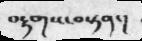བརྟགས་བསྟན་།
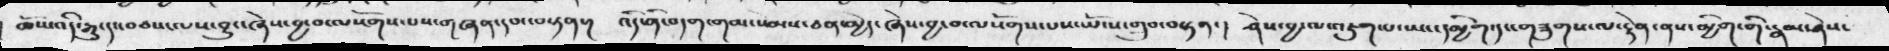ཆོས་འདི་རྒྱུ་དང་བཅས་ལས་བྱུང་ཞེས་བྱ་བ་ལསོགས་པས་གཞན་དབང་བསྟན་།  འདི་་ནི་བདག་གམ་སེམས་ཅན་མྱེད་ཞེས་བྱ་བ་ལསོགས་པས་ཡོངས་གྲུབ་བསྟན་།  ཤེས་བྱ་ལ་འཇུག་པ་ཡང་དམྱིག་དང་གཟུགས་ལ་རྟེན་ནས་མྱིག་གི་རྣམ་ཤེས་
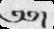༄༅།
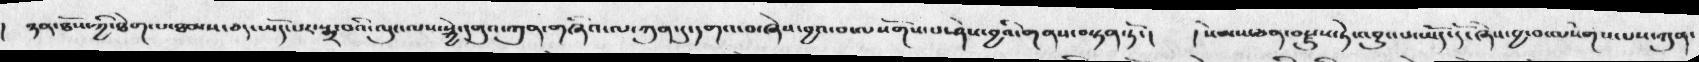།   ཉན་ཐོས་ཀྱི་ཐེག་པ་ཐམས་ཅད་ཡོད་པར་སྨྲ་བའི་ལུང་ལས་སྐྱེ་དགུའ་ཀུན་གཞིའི་ལ་ཀུན་དུ་དགའ་བ་ཞེས་བྱའ་བ་ལསོགས་པ་ཤེས་བའི་གནས་བསྟན་ཏོ་།  ། སེམས་ཅན་བརྫུས་ཏེ་འབྱུང་པ་ཡོད་དོ་ཞེས་བྱ་བ་ལསོགས་པས་ཀུན་
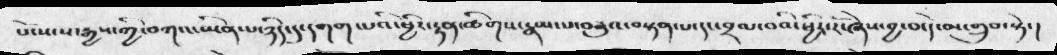པོ་སངས་རྒྱས་ཀི་བཀའ་ཡིན་པ་ཉིད་དུ་དགག་པའི་ཕྱིར་རྟན་ཚིགས་རྣམ་པ་བཅུའ་བསྟན་པ་དང་བྲལ་བའི་ཕྱིར་རོ་ཞེས་བྱ་བ་དེ་མ་གྲུབ་སྟེ་།
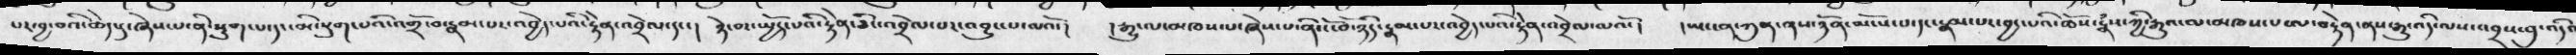པར་བྱ་བའི་ཆེད་དུ་ཞེས་པ་ནི་སྡུག་པ་དང་མི་སྡུག་པའི་འགྲོ་བ་རྣམ་པར་འབྱེད་པའི་རྟེན་འབྲེལ་དང་།  ཉེ་བར་སྤྱོད་པའི་རྟེན་ཅིང་འབྲེལ་པར་འབྱུང་པ་ལའོ་།  ། རྒྱུ་ལ་མཁས་པ་ཞེས་པ་ནི་ངོ་བོ་ཉིད་རྣམ་པར་འབྱེད་པའི་རྟེན་འབྲེལ་ལའོ་།   །ཡང་ན་ཀུན་ནས་ཉོན་མོངས་པ་དང་རྣམ་པར་བྱང་པའི་ཆོས་རྣཾས་ཀྱི་རྒྱུའ་ལ་མཁས་པ་ལ་བརྟེན་ནས་རྒྱུ་འདི་ལས་འབྲས་བུ་འདི་
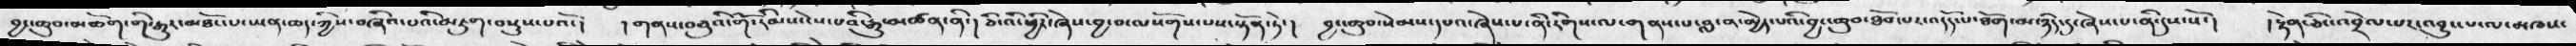བྱང་ཆུབ་མཆོག་གི་རྒྱུར་མཐོང་པ་ཡན་ཆད་ཀྱིས་བཞིའ་པའི་མཇུག་བསྡུས་པའོ་།  །གནས་བཅུའི་གོ་རིམས་ངེས་པའི་རྒྱུ་མཚན་ནི་།  ཅི་འི་ཕྱིར་ཞེས་བྱ་བ་ལསོགས་པས་སྟོན་ཏེ་།   བྱང་ཆུབ་སེམས་དཔའ་ཞེས་པ་ནི་རིགས་་ལ་གནས་པ་བླ་ན་མྱེད་པའི་བྱང་ཆུབ་ཐོབ་པར་འདོད་པ་ཐོག་མ་ཉིད་དུ་ཞེས་པ་ནི་དུས་སོ་།   །རྟེན་ཅིང་འབྲེལ་པར་འབྱུང་པ་ལ་མཁས་
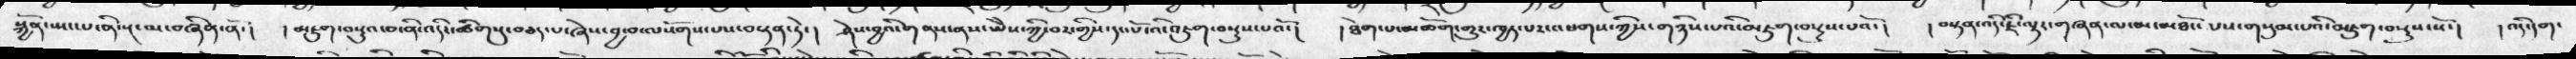སྐྱོན་སྤང་པ་སྔ་མ་བཞིན་ནོ་ །  །  མཇུག་བསྡུའ་བ་ནི་འདིར་ཚིགསུ་བཅད་པ་ཞེས་བྱ་བ་ལསོགས་པས་བསྟན་ཏེ་ །   ཤེས་བྱའི་གནས་ནས་ཡེེས་ཀྱི་བར་གྱིས་དང་པོའི་འཇུག་བསྡུས་པའོ་ །  ། ཐེག་པ་མཆོག་གྱུར་ཁྱད་པར་འཕགས་ཀྱིས་གཉིས་པའི་མཇུག་བསྡུསཔའོ་ །    །  བསྟན་འདི་ཇི་ལྟར་གཞན་ལ་མ་མཐོང་པས་གསུམ་པའི་མཇུག་བསྡུས་སོ་།     ། འདི་དག་
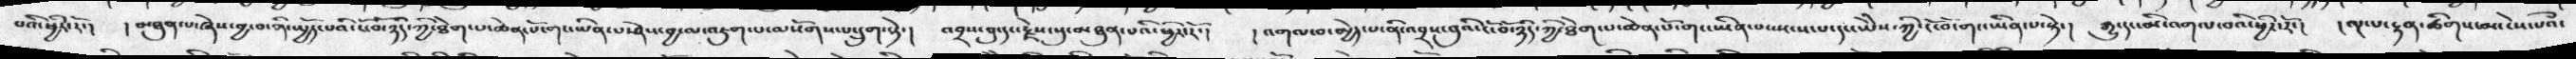པའི་ཕྱིར་རོ་ །  ། མཐུན་པ་ཞེས་བྱ་བ་ནི་ཡྱོད་པའི་ངོ་བོ་ཉིད་ཀྱི་ཐེག་པ་ཆེན་པོ་གང་ཡིན་པ་ཞེས་བྱ་ལ་འཇུག་པ་ལསོགས་པ་དྲུག་སྟེ་ །  འབྲས་བུ་དང་རྗེས་སུ་མཐུན་པའི་ཕྱིར་རོ་།  ། འགལ་བ་མྱེད་པ་ནི་འབྲས་བུའི་ངོ་བོ་ཉིད་ཀྱི་ཐེག་པ་ཆེན་པོ་གང་ཡིན་པ་སྤང་པ་དང་ཡེེས་ཀྱི་ངོ་བོ་གང་ཡིན་པ་སྟེ་ །   རྒྱུུ་དང་མི་འགལ་བའི་ཕྱིར་རོ་ །   ། ལྔ་པ་རྟན་ཚིགས་མ་ངེས་པའི་
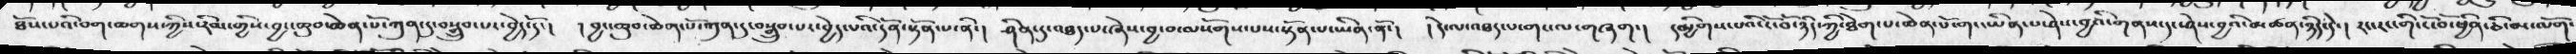ཐོས་པའི་བག་ཆགས་ཀྱིས་རིམ་གྱིས་བྱང་ཆུབ་ཆེན་པོ་ཀུན་དུ་བསྒྲུབ་པར་བྱེད་དོ་ །   ། བྱང་ཆུབ་ཆེན་པོ་ཀུན་དུ་བསྒྲུབ་པར་བྱེད་པའི་དོན་སྟོན་པ་ནི་།  ཤིན་དུ་འཐད་པ་ཞེས་བྱ་བ་ལ་སོགས་པས་སྟོན་པ་ཡིན་ནོ་།  ། དེ་ལ་འཐད་པ་གང་ལ་གཞག་།   དམྱིགས་པའི་ངོ་བོ་ཉིད་ཀྱི་ཐེག་པ་ཆེན་པོ་གང་ཡིན་པ་ཤེས་བྱའི་གནས་དང་ཤེས་བྱའི་མཚན་ཉིད་དེ་།  རང་རང་གི་ངོ་བོ་ཕྱིན་ཅི་མ་ལོག་
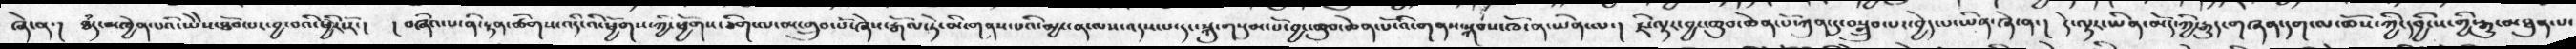ཞེ་ན་།   ཐཾད་མཁྱེན་པའི་ཡེེས་ཐོབ་པར་བྱ་བའི་ཕྱིར་རོ་།   །  བཞིའ་པ་ནི་རྟན་ཚིགས་འདི་འི་ཕྱོགས་ཀྱི་ཕྱོགས་ཅིག་ལ་མ་གྲུབ་པོ་ཞེས་རྒོལ་ཏེ་མི་གནས་པའི་མྱ་ངན་ལས་འདས་པ་དང་སྐུ་གསུམ་པོ་བྱང་ཆུབ་ཆེན་པོ་འི་གནས་སྐབས་ཁོ་ན་ཡིན་ལ་།  ཇི་ལྟར་བྱང་ཆུབ་ཆེན་པོ་ཀུན་དུ་བསྒྲུབ་པར་བྱེད་པ་ཡིན་ཞེ་ན་།    དེ་ལྟར་ཡིན་མོད་ཀྱི་རྒྱུད་གཞན་དག་ལ་ཆོས་དབྱིངས་གྱི་རྒྱུད་མཐུན་པ་
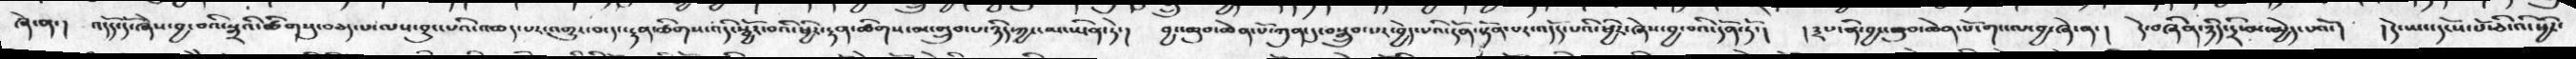ཞེ་ན་ །  འདོད་དོ་ཞེས་བྱ་བའི་སྒྲའི་ཚིགསུ་བཅད་པ་ལས་བྱུང་པའི་འཆད་པར་འགྱུར་བ་དང་རྟན་ཚིགས་འདི་སྦྱོར་བའི་ཕྱིར་རྟན་ཚིགས་མ་གྲུབ་པ་ཉིད་ཀྱང་མ་ཡིན་ཏེ་།  བྱང་ཆུབ་ཆེན་པོ་ཀུན་དུ་བསྒྲུབ་པར་བྱེད་པའི་དོན་སྟོན་པར་འདོད་པའི་ཕྱིར་ཞེས་བྱ་བའི་དོན་ཏོ་།   ། ༣པ་ནི་བྱང་ཆུབ་ཆེན་པོ་གང་ལ་བྱ་ཞེ་ན་།   དེ་བཞིན་ཉིད་དྲི་མ་མྱེད་པའོ་།   ། དེ་ཡང་དངོས་པོ་ཅི་འི་ཕྱིར་
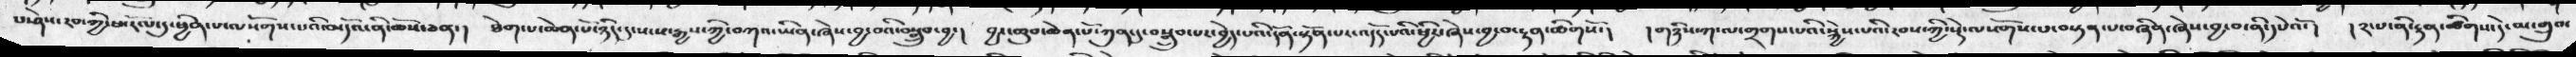པ་ཤེས་རབ་ཀྱི་ཕ་རོལ་དུ་ཕྱིན་པ་ལསོགས་པའི་མདོའ་ནི་ཆོས་ཅན་།   ཐེག་པ་ཆེན་པོ་ཉིད་དུ་སངས་རྒྱས་ཀྱི་བཀའ་ཡིན་ཞེས་བྱ་བའི་བསྒྲུབ་བྱ་།   བྱང་ཆུབ་ཆེན་པོ་ཀུན་དུ་བསྒྲུབ་པར་བྱེད་པའི་དོན་སྟོན་པར་འདོད་པའི་ཕྱིར་ཞེས་བྱ་བ་རྟན་ཚིགསོ་།  །གཉིས་ཀ་ལ་གྲགས་པའི་སྐྱེས་པའི་རབས་ཀྱི་སྡེ་ལསོགས་པ་བསྟན་པ་བཞིན་ཞེས་བྱ་བ་ནི་དཔེའོ་།  །༢་པ་ནི་རྟན་ཚིགས་དེ་མ་གྲུབ་
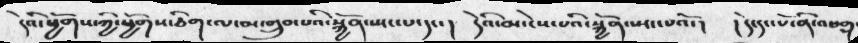དེའི་ཕྱོགས་ཀྱི་ཕྱོགས་ཅིག་ལ་མ་གྲུབ་པའི་སྐྱོན་སྤང་པ་དང་།  དེའི་མ་ངེས་པའི་སྐྱོན་སྤང་པའོ་།  །  དེ་དང་པོ་ནི་འཕགས་
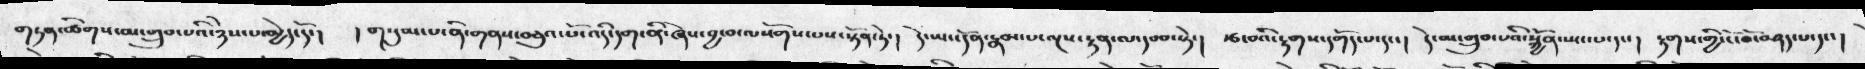གཏན་ཚིགས་མ་གྲུབ་པའི་ཉེས་པ་མྱེད་དོ་།  ། གསུམ་པ་ནི་གནས་བཅུའ་པོ་འདི་དག་ནི་ཞེས་བྱ་བ་ལསོགས་པས་སྟོན་ཏེ་།  དེ་ཡང་དོན་རྣམ་པ་ལྔས་རྟན་ལ་དབབ་སྟེ་།  རྩ་བའི་རྟགས་དགོད་པ་དང་།  དེ་མ་གྲུབ་པའི་སྐྱོན་སྤང་པདང་།   རྟགས་གྱི་ངོ་བོ་བཤད་པ་དང་།
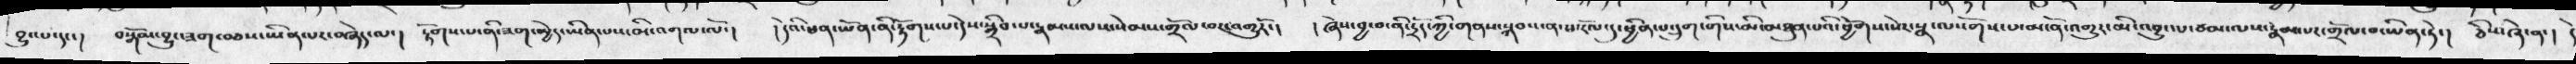བྱུང་པ་དང་།  བསྒོམ་བྱུང་ཟག་བཅས་ཡིན་པར་བཞེད་ལ་།  རྟོགས་པ་ནི་ཟག་མྱེད་ཡིན་པས་མི་འགལ་ལོ་།  ། དེའི་ཕན་ཡོན་ནི་རྟོགས་པ་དེས་སྒྲིབ་པ་རྣམས་ལས་སེམས་གྲོལ་བར་འགྱུརོ་།  ། ཞེས་བྱ་བ་ནི་དྲོད་ཀྱི་གནས་སྐབས་ན་ཕ་རོལ་དུ་ཕྱིན་པ་དྲུག་གིས་མི་མཐུན་པའི་ཕྱོགས་སེར་སྣ་ལསོགས་པ་མངོན་འགྱུར་མི་འབྱུང་པ་ཙམ་ལས་རྣམ་པར་གྲོལ་བ་ཡིན་ཏེ་།  ཅིས་ཞེ་ན་།  དེ
